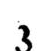3
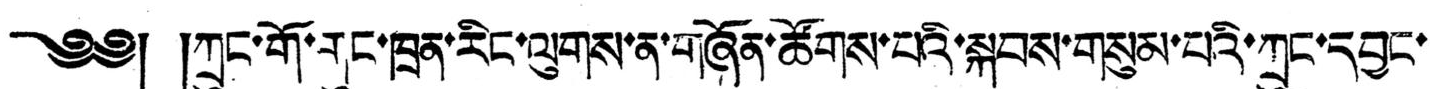༄༅། །ཀྲུང་གོ་གུང་ཁྲན་རིང་ལུགས་ན་གཞོན་ཚོགས་པའི་སྐབས་གསུམ་པའི་ཀྲུང་དབྱང་
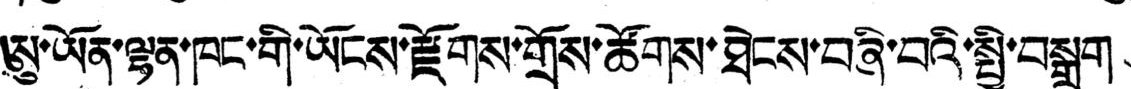ཨུ་ཡོན་ལྷན་ཁང་གི་ཡོངས་རྫོགས་གྲོས་ཚོགས་ཐེངས་བཞི་བའི་སྤྱི་བསྒྲག
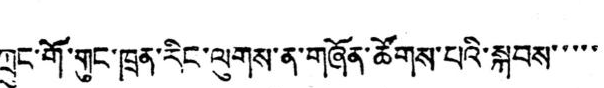ཀྲུང་གོ་གུང་ཁྲན་རིང་ལུགས་ན་གཞོན་ཚོགས་པའི་སྐབས་་་་་
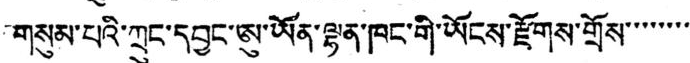གསུམ་པའི་ཀྲུང་དབྱང་ཨུ་ཡོན་ལྷན་ཁང་གི་ཡོངས་རྫོགས་གྲོས་་་་་་་་
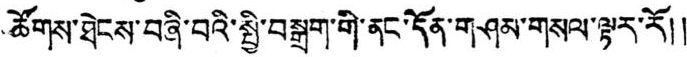ཚོགས་ཐེངས་བཞི་བའི་སྤྱི་བསྒྲག་གི་ནང་དོན་གཤམ་གསལ་ལྟར་རོ༎
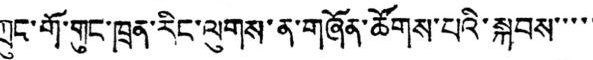ཀྲུང་གོ་གུང་ཁྲན་རིང་ལུགས་ན་གཞོན་ཚོགས་པའི་སྐབས་་་་་
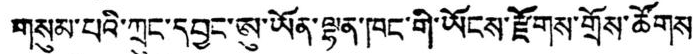གསུམ་པའི་ཀྲུང་དབྱང་ཨུ་ཡོན་ལྷན་ཁང་གི་ཡོངས་རྫོགས་གྲོས་ཚོགས
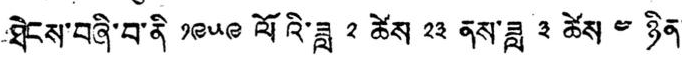ཐེངས་བཞི་བ་ནི ༡༩༥༩ ལོའི་ཟླ ༢ ཚེས ༢༣ ནས་ཟླ ༣ ཚེས ༤ ཉིན་
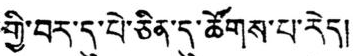གྱི་བར་དུ་པེ་ཅིན་དུ་ཚོགས་པ་རེད།
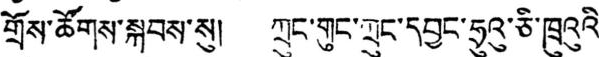གྲོས་ཚོགས་སྐབས་སུ། ཀྲུང་གུང་ཀྲུང་དབྱང་ཧྲུའུ་ཅི་ཁྲུའུའི་
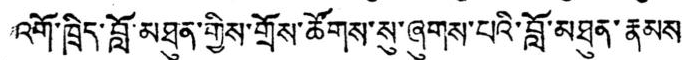འགོ་ཁྲིད་བློ་མཐུན་གྱིས་གྲོས་ཚོགས་སུ་ཞུགས་པའི་བློ་མཐུན་རྣམས་
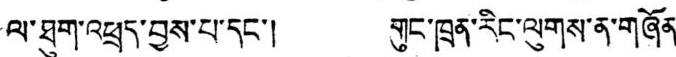ལ་ཐུག་འཕྲད་བྱས་པ་དང་། གུང་ཁྲན་རིང་ལུགས་ན་གཞོན་
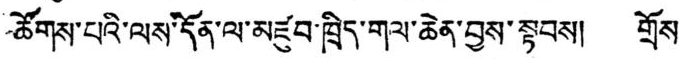ཚོགས་པའི་ལས་དོན་ལ་མཛུབ་ཁྲིད་གལ་ཆེན་བྱས་སྟབས། གྲོས་
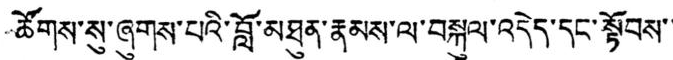ཚོགས་སུ་ཞུགས་པའི་བློ་མཐུན་རྣམས་ལ་བསྐུལ་འདེད་དང་སྟོབས་་་
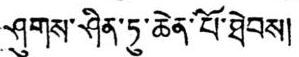ཤུགས་ཤིན་ཏུ་ཆེན་པོ་ཐེབས།
